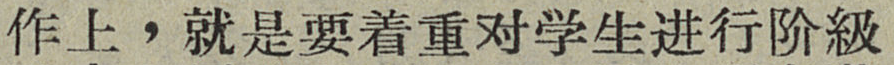作上，就是要着重对学生进行阶級
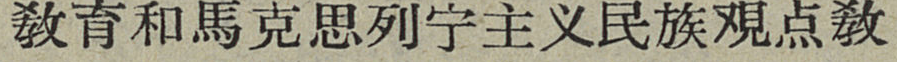敎育和馬克思列宁主义民族覌点敎
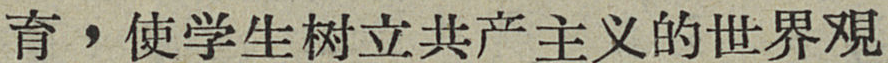育，使学生树立共产主义的世界覌
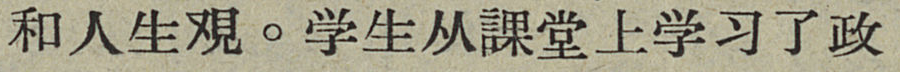和人生覌。学生从課堂上学习了政
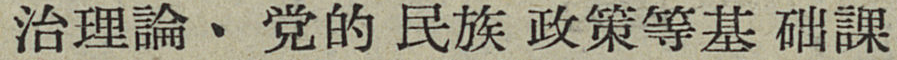治理論、党的民族政策等基础課
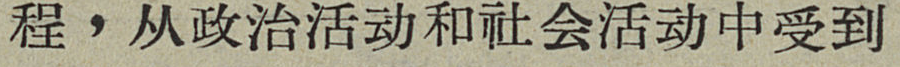程，从政治活动和社会活动中受到
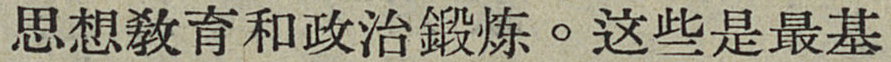思想敎育和政治鍛炼。这些是最基
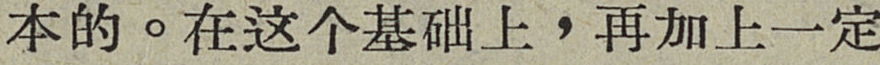本的。在这个基础上，再加上一定
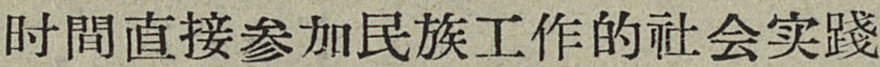实間直接参加民族工作的社会实踐
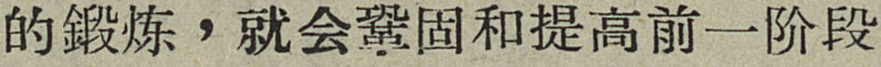的鍛炼，就会鞏固和提高前一阶段
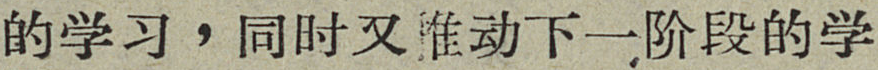的学习，同时又推动下一阶段的学
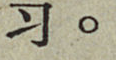习。
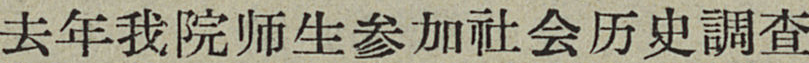去年我院师生参加社会历史調查
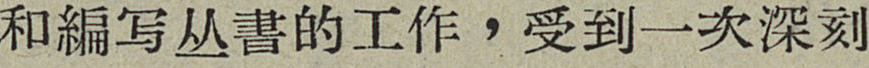和編写丛書的工作，受到一次深刻
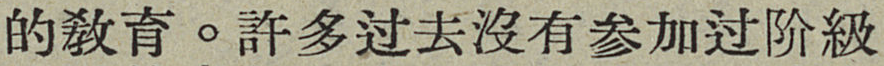的敎育。許多沒有参加过阶級
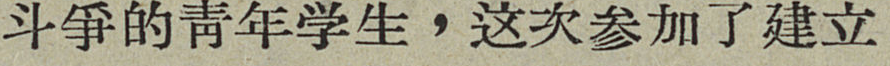斗爭的靑年学生，这次参加了建立
